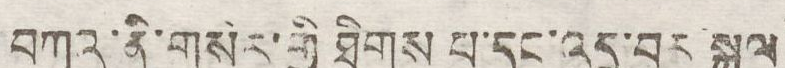བཀའ་ནི་གསེར་གྱི ཐིགས པ་དང་འདྲ་བར་སྐལ
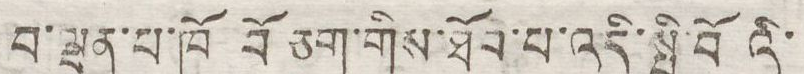པ་ལྡན་པ་ཁོ བོ་ཅག་གིས་ཐོབ་པ་འདི་སྤྱི་བོ འི་
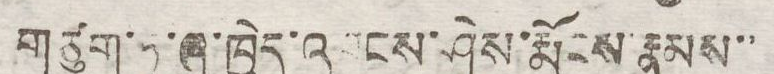གཙུག་ཏུ་ཞུ་ཁྱེད་འབངས་ཤེས་རྨོངས་རྣམས་་
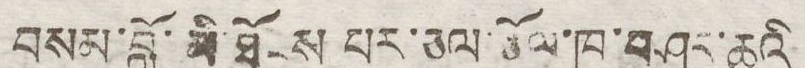བསམ་བློ་མི་ཐོངས པར་ཅལ་ཅོལ་ཁ་བཤང་ཆུའི
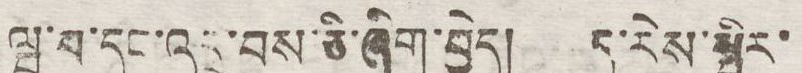ལྦུ་བ་དང་འདྲ་བས་ཅི་ཞིག་བྱེད། ད་རེས་སྤྱིར་
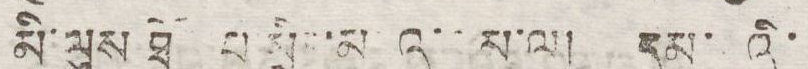མི་ལུས་ཐོབ་པ་སྲིད་མ འ་མ་ལ། དམ་པའི་
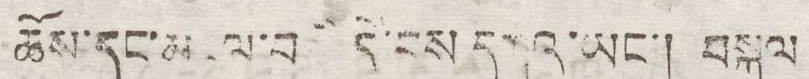ཆོས་དང་མ ལ་བ དེ་ངས དམའ་ཡང་། བསྐལ
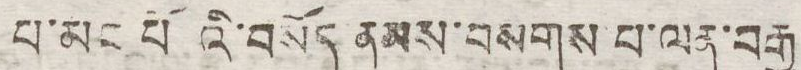པ་མང པོའི་བསོད ནམས་བསགས་པ་ལན་བརྒྱ
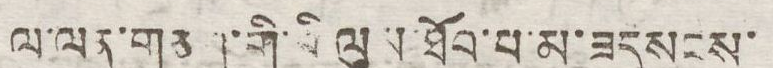ལ་ལན་གཅིག་གི་མི་ལུས་ཐོབ་པ་མ་ཟད སངས་
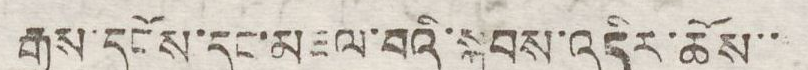རྒྱས་དངོས་དང་མཇལ་བའི་སྐབས་འདིར་ཆོས་་
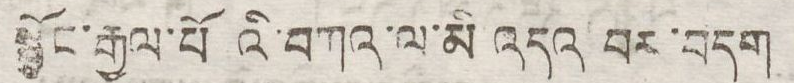སྐྱོང་རྒྱལ་པའི་བཀའ་ལ་མི འདའ བར་བདག
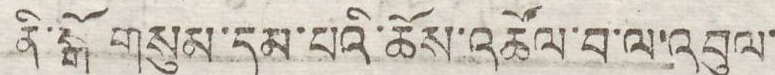ནི་སྒོ གསུམ་དམ་པའི་ཆོས་འཚོལ་བ་ལ་འབུལ་
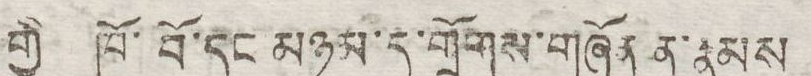གྱི ཁོ་བོ་དང མཉམ་དུ་གྲོགས་གཞོན ནུ་རྣམས
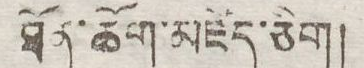ཐོན་ཆོག་མཛེད་ཅིག །
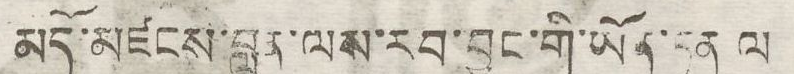མདོ་མཛངས་བླུན་ལས་རབ་བྱུང་གི་ཡོན་ཏན ལ
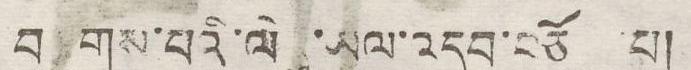བསྔགས་པའི་ལེའུ་ཡལ་འདབ་བཅོ ་པ།
